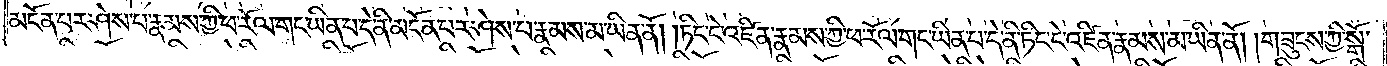མངོན་པར་ཤེས་པ་རྣམས་ཀྱི་ཕ་རོལ་གང་ཡིན་པ་དེ་ནི་མངོན་པར་ཤེས་པ་རྣམས་མ་ཡིན་ནོ། །ཏིང་ངེ་འཛིན་རྣམས་ཀྱི་ཕ་རོལ་གང་ཡིན་པ་དེ་ནི་ཏིང་ངེ་འཛིན་རྣམས་མ་ཡིན་ནོ། །གཟུངས་ཀྱི་སྒོ་
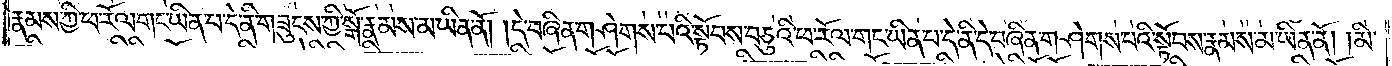རྣམས་ཀྱི་ཕ་རོལ་གང་ཡིན་པ་དེ་ནི་གཟུངས་ཀྱི་སྒོ་རྣམས་མ་ཡིན་ནོ། །དེ་བཞིན་གཤེགས་པའི་སྟོབས་བཅུའི་ཕ་རོལ་གང་ཡིན་པ་དེ་ནི་དེ་བཞིན་གཤེགས་པའི་སྟོབས་རྣམས་མ་ཡིན་ནོ། །མི་
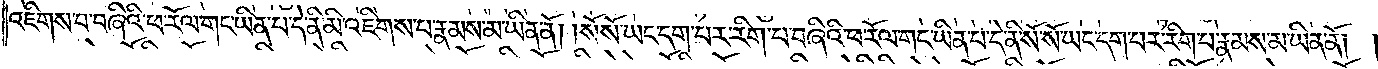འཇིགས་པ་བཞིའི་ཕ་རོལ་གང་ཡིན་པ་དེ་ནི་མི་འཇིགས་པ་རྣམས་མ་ཡིན་ནོ། །སོ་སོ་ཡང་དག་པར་རིག་པ་བཞིའི་ཕ་རོལ་གང་ཡིན་པ་དེ་ནི་སོ་སོ་ཡང་དག་པར་རིག་པ་རྣམས་མ་ཡིན་ནོ། །
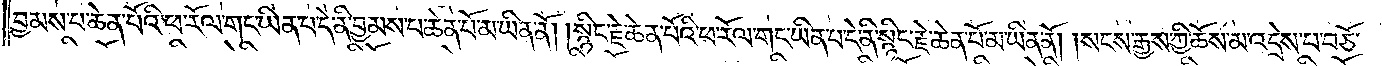བྱམས་པ་ཆེན་པོའི་ཕ་རོལ་གང་ཡིན་པ་དེ་ནི་བྱམས་པ་ཆེན་པོ་མ་ཡིན་ནོ། །སྙིང་རྗེ་ཆེན་པོའི་ཕ་རོལ་གང་ཡིན་པ་དེ་ནི་སྙིང་རྗེ་ཆེན་པོ་མ་ཡིན་ནོ། །སངས་རྒྱས་ཀྱི་ཆོས་མ་འདྲེས་པ་བཅོ་
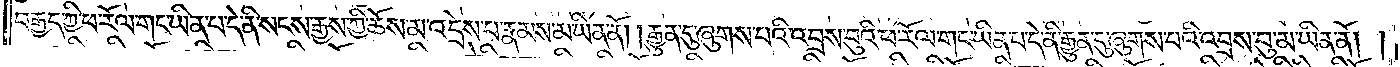བརྒྱད་ཀྱི་ཕ་རོལ་གང་ཡིན་པ་དེ་ནི་སངས་རྒྱས་ཀྱི་ཆོས་མ་འདྲེས་པ་རྣམས་མ་ཡིན་ནོ། །རྒྱུན་ཏུ་ཞུགས་པའི་འབྲས་བུའི་ཕ་རོལ་གང་ཡིན་པ་དེ་ནི་རྒྱུན་དུ་ཞུགས་པའི་འབྲས་བུ་མ་ཡིན་ནོ། །
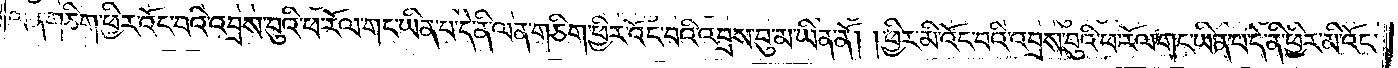ལན་གཅིག་ཕྱིར་འོང་བའི་འབྲས་བུའི་ཕ་རོལ་གང་ཡིན་པ་དེ་ནི་ལན་ཅིག་ཕྱིར་འོང་བའི་འབྲས་བུ་མ་ཡིན་ནོ། །ཕྱིར་མི་འོང་བའི་འབྲས་བུའི་ཕ་རོལ་གང་ཡིན་པ་དེ་ནི་ཕྱིར་མི་འོང་
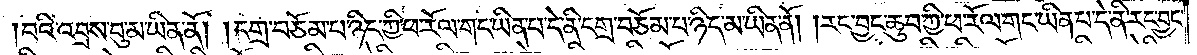བའི་འབྲས་བུ་མ་ཡིན་ནོ། །དགྲ་བཅོམ་པ་ཉིད་ཀྱི་ཕ་རོལ་གང་ཡིན་པ་དེ་ནི་དགྲ་བཅོམ་པ་ཉིད་མ་ཡིན་ནོ། །རང་བྱང་ཆུབ་ཀྱི་ཕ་རོལ་གང་ཡིན་པ་དེ་ནི་རང་བྱང་
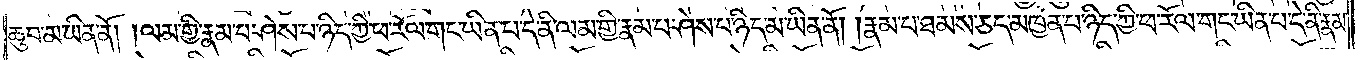ཆུབ་མ་ཡིན་ནོ། །ལམ་གྱི་རྣམ་པ་ཤེས་པ་ཉིད་ཀྱི་ཕ་རོལ་གང་ཡིན་པ་དེ་ནི་ལམ་གྱི་རྣམ་པ་ཤེས་པ་ཉིད་མ་ཡིན་ནོ། །རྣམ་པ་ཐམས་ཅད་མཁྱེན་པ་ཉིད་ཀྱི་ཕ་རོལ་ཏུ་གང་ཡིན་པ་དེ་ནི་རྣམ་
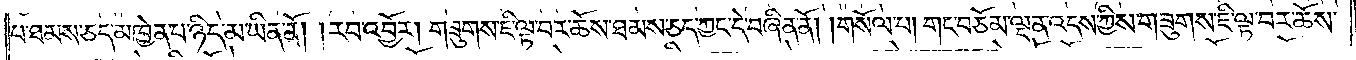པ་ཐམས་ཅད་མཁྱེན་པ་ཉིད་མ་ཡིན་ནོ། །རབ་འབྱོར། གཟུགས་ཇི་ལྟ་བར་ཆོས་ཐམས་ཅད་ཀྱང་དེ་བཞིན་ནོ། །གསོལ་པ། གང་བཅོམ་ལྡན་འདས་ཀྱིས་གཟུགས་ཇི་ལྟ་བར་ཆོས་
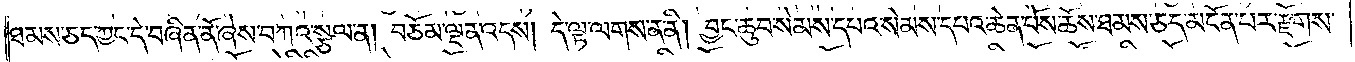ཐམས་ཅད་ཀྱང་དེ་བཞིན་ནོ་ཞེས་བཀའ་སྩལ་ན། བཅོམ་ལྡན་འདས། དེ་ལྟ་ལགས་ན་ནི། བྱང་ཆུབ་སེམས་དཔའ་སེམས་དཔའ་ཆེན་པོས་ཆོས་ཐམས་ཅད་མངོན་པར་རྫོགས་
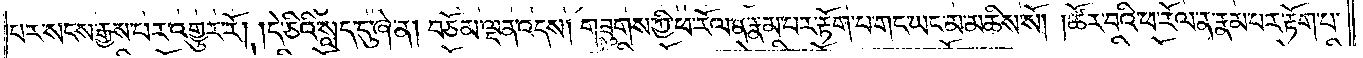པར་སངས་རྒྱས་པར་འགྱུར་རོ། །དེ་ཅིའི་སླད་དུ་ཞེ་ན། བཅོམ་ལྡན་འདས། གཟུགས་ཀྱི་ཕ་རོལ་ན་རྣམ་པར་རྟོག་པ་གང་ཡང་མ་མཆིས་སོ། །ཚོར་བའི་ཕ་རོལ་ན་རྣམ་པར་རྟོག་པ་
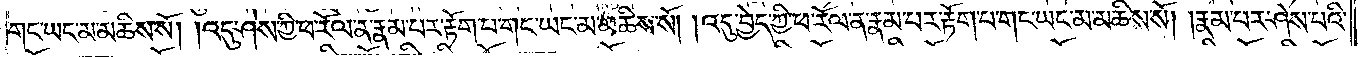གང་ཡང་མ་མཆིས་སོ། །འདུ་ཤེས་ཀྱི་ཕ་རོལ་ན་རྣམ་པར་རྟོག་པ་གང་ཡང་མ་མཆིས་སོ། །འདུ་བྱེད་ཀྱི་ཕ་རོལ་ཏུ་ན་རྣམ་པར་རྟོག་པ་གང་ཡང་མ་མཆིས་སོ། །རྣམ་པར་ཤེས་པའི་
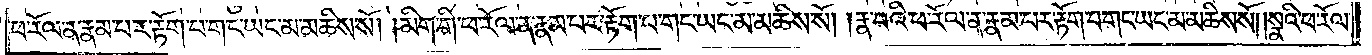ཕ་རོལ་ན་རྣམ་པར་རྟོག་པ་གང་ཡང་མ་མཆིས་སོ། །མིག་གི་ཕ་རོལ་ན་རྣམ་པར་རྟོག་པ་གང་ཡང་མ་མཆིས་སོ། །རྣ་བའི་ཕ་རོལ་ན་རྣམ་པར་རྟོག་པ་གང་ཡང་མ་མཆིས་སོ། །སྣའི་ཕ་རོལ་
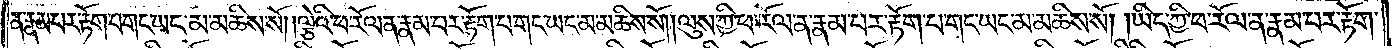ན་རྣམ་པར་རྟོག་པ་གང་ཡང་མ་མཆིས་སོ། །ལྕེའི་ཕ་རོལ་ན་རྣམ་པར་རྟོག་པ་གང་ཡང་མ་མཆིས་སོ། །ལུས་ཀྱི་ཕ་རོལ་ན་རྣམ་པར་རྟོག་པ་གང་ཡང་མ་མཆིས་སོ། །ཡིད་ཀྱི་ཕ་རོལ་ན་རྣམ་པར་རྟོག་
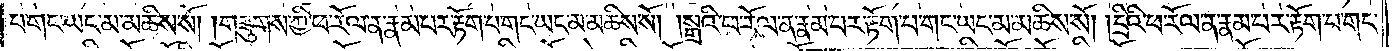པ་གང་ཡང་མ་མཆིས་སོ། །གཟུགས་ཀྱི་ཕ་རོལ་ན་རྣམ་པར་རྟོག་པ་གང་ཡང་མ་མཆིས་སོ། །སྒྲའི་ཕ་རོལ་ན་རྣམ་པར་རྟོག་པ་གང་ཡང་མ་མཆིས་སོ། །དྲིའི་ཕ་རོལ་ན་རྣམ་པར་རྟོག་པ་གང་
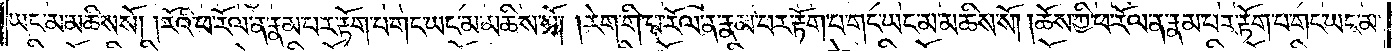ཡང་མ་མཆིས་སོ། །རོའི་ཕ་རོལ་ན་རྣམ་པར་རྟོག་པ་གང་ཡང་མ་མཆིས་སོ། །རེག་གི་ཕ་རོལ་ན་རྣམ་པར་རྟོག་པ་གང་ཡང་མ་མཆིས་སོ། །ཆོས་ཀྱི་ཕ་རོལ་ན་རྣམ་པར་རྟོག་པ་གང་ཡང་མ་
